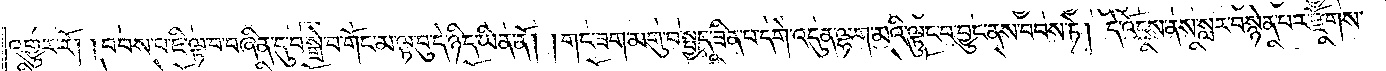འགྱུར་རོ། །བབས་པ་ཇི་ལྟ་བ་བཞིན་དུ་བསྒྲེ་བ་གོང་མ་ལྟ་བུ་དེ་ཉིད་ཡིན་ནོ། །གང་ཟག་མགུ་བ་སྤྱད་ཟིན་པ་དགེ་འདུན་ལྷག་མའི་ལྟུང་བ་བྱུང་ནས་བབས་ཏེ། དེ་འོངས་ནས་སླར་བསྙེན་པར་རྫོགས་
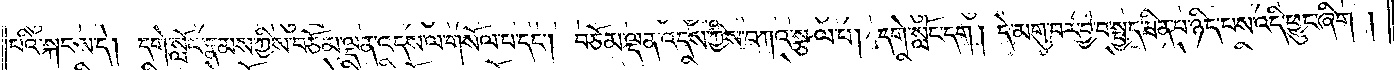པའི་སྐབས་དེ། དགེ་སློང་རྣམས་ཀྱིས་བཅོམ་ལྡན་འདས་ལ་གསོལ་པ་དང༌། བཅོམ་ལྡན་འདས་ཀྱིས་བཀའ་སྩལ་པ། དགེ་སློང་དག། དེ་མགུ་བར་བྱ་བ་སྤྱད་ཟིན་པ་ཉིད་པས་འདི་ཕྱུང་ཞིག །
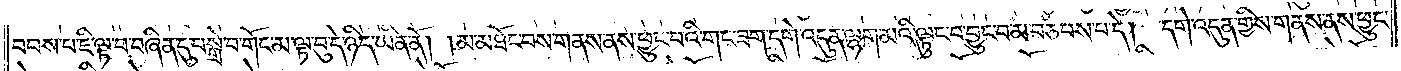བབས་པ་ཇི་ལྟ་བ་བཞིན་དུ་བསྒྲེ་བ་གོང་མ་ལྟ་བུ་དེ་ཉིད་ཡིན་ནོ། །མ་མཐོང་བས་གནས་ནས་ཕྱུང་བའི་གང་ཟག་དགེ་འདུན་ལྷག་མའི་ལྟུང་བ་བྱུང་བ་མ་བཅབས་པ་དེ། དགེ་འདུན་གྱིས་གནས་ནས་ཕྱུང་
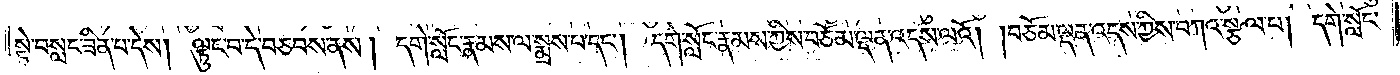སྟེ་བསླང་ཟིན་པ་དེས། ལྟུང་བ་དེ་བཅབས་ནས། དགེ་སློང་རྣམས་ལ་སྨྲས་པ་དང༌། དགེ་སློང་རྣམས་ཀྱིས་བཅོམ་ལྡན་འདས་ལའོ། །བཅོམ་ལྡན་འདས་ཀྱིས་བཀའ་སྩལ་པ། དགེ་སློང་
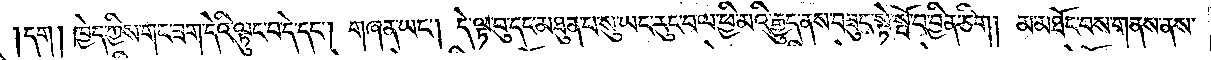དག། ཁྱེད་ཀྱིས་གང་ཟག་དེའི་ལྟུང་བ་དེ་དང༌། གཞན་ཡང༌། དེ་ལྟ་བུ་དང་མཐུན་པ་སུ་ཡང་རུང་བ་ལ་ཕྱི་མའི་རྒྱུད་ནས་བཟུང་སྟེ་སྤོ་བ་བྱིན་ཅིག། མ་མཐོང་བས་གནས་ནས་
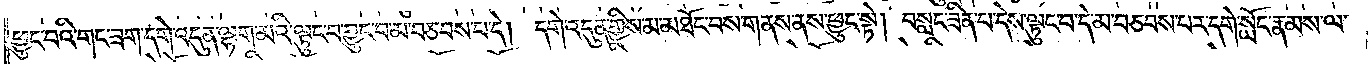ཕྱུང་བའི་གང་ཟག་དགེ་འདུན་ལྷག་མའི་ལྟུང་བ་བྱུང་བ་མ་བཅབས་པ་དེ། དགེ་འདུན་གྱིས་མ་མཐོང་བས་གནས་ནས་ཕྱུང་སྟེ། བསླང་ཟིན་པ་དེས་ལྟུང་བ་དེ་མ་བཅབས་པར་དགེ་སློང་རྣམས་ལ་
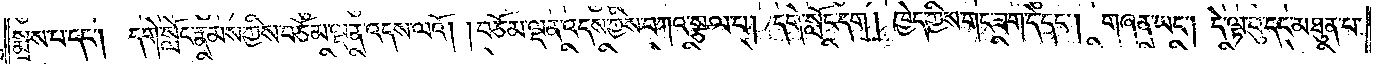སྨྲས་པ་དང༌། དགེ་སློང་རྣམས་ཀྱིས་བཅོམ་ལྡན་འདས་ལའོ། །བཅོམ་ལྡན་འདས་ཀྱིས་བཀའ་སྩལ་པ། དགེ་སློང་དག། ཁྱེད་ཀྱིས་གང་ཟག་དེ་དང༌། གཞན་ཡང༌། དེ་ལྟ་བུ་དང་མཐུན་པ་
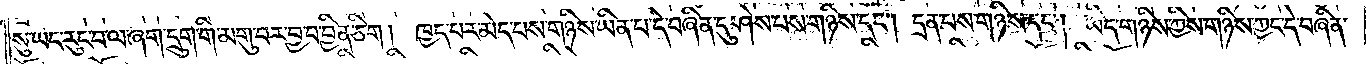སུ་ཡང་རུང་བ་ལ་ཞག་དྲུག་གི་མགུ་བར་བྱ་བ་བྱིན་ཅིག། ཁྱད་པར་མེད་པས་གཉིས་ཡིན་པ་དེ་བཞིན་དུ་ཤེས་པས་གཉིས་དང༌། དྲན་པས་གཉིས་དང༌། ཡིད་གཉིས་ཀྱིས་གཉིས་ཀྱང་དེ་བཞིན་
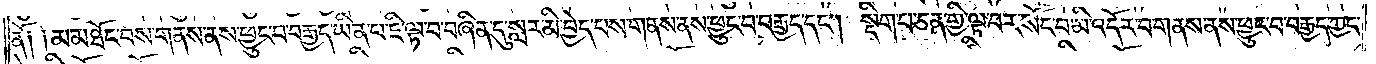ནོ། །མ་མཐོང་བས་གནས་ནས་ཕྱུང་བ་བརྒྱད་ཡིན་པ་ཇི་ལྟ་བ་བཞིན་དུ་སླར་མི་བྱེད་པས་གནས་ནས་ཕྱུང་བ་བརྒྱད་དང༌། སྡིག་པ་ཅན་གྱི་ལྟ་བར་སོང་བ་མི་འདོར་བ་གནས་ནས་ཕྱུང་བ་བརྒྱད་ཀྱང་
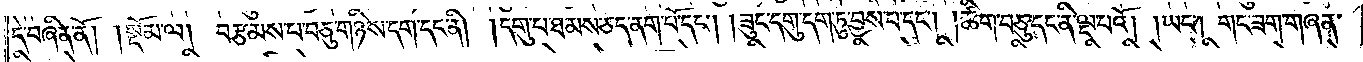དེ་བཞིན་ནོ།    །སྡོམ་ལ། བརྩམས་པ་བཅུ་གཉིས་དག་དང་ནི། །དགུ་པ་ཐམས་ཅད་ནག་པོ་དང༌། །ཟུང་དགུ་དག་ཏུ་བྱས་པ་དང༌། །ཚིག་བཅུ་དང་ནི་ལྔ་པའོ། །ཡང༌། གང་ཟག་གཞན་
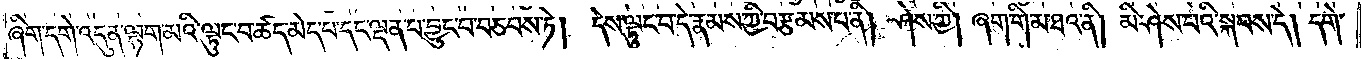ཞིག་དགེ་འདུན་ལྷག་མའི་ལྟུང་བ་ཚད་མེད་པ་དང་ལྡན་པ་བྱུང་བ་བཅབས་ཏེ། དེས་ལྟུང་བ་དེ་རྣམས་ཀྱི་བརྩམས་པ་ནི། ཤེས་ཀྱི། ཞག་གི་མཐའ་ནི། མི་ཤེས་པའི་སྐབས་དེ། དགེ་
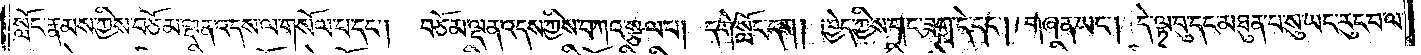སློང་རྣམས་ཀྱིས་བཅོམ་ལྡན་འདས་ལ་གསོལ་པ་དང༌། བཅོམ་ལྡན་འདས་ཀྱིས་བཀའ་སྩལ་པ། དགེ་སློང་དག། ཁྱེད་ཀྱིས་གང་ཟག་དེ་དང༌། གཞན་ཡང༌། དེ་ལྟ་བུ་དང་མཐུན་པ་སུ་ཡང་རུང་བ་ལ་
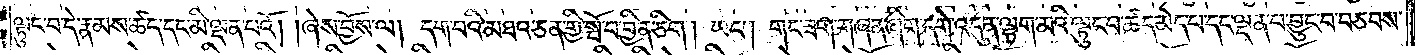ལྟུང་བ་དེ་རྣམས་ཚད་དང་མི་ལྡན་པའོ། །ཞེས་བྱོས་ལ། དག་པའི་མཐའ་ཅན་གྱི་སྤོ་བ་བྱིན་ཅིག། ཡང༌། གང་ཟག་གཞན་ཞིག་དགེ་འདུན་ལྷག་མའི་ལྟུང་བ་ཚད་མེད་པ་དང་ལྡན་པ་བྱུང་བ་བཅབས་
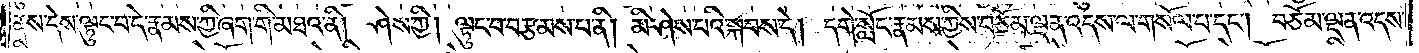ནས་དེས་ལྟུང་བ་དེ་རྣམས་ཀྱི་ཞག་གི་མཐའ་ནི། ཤེས་ཀྱི། ལྟུང་བ་བརྩམས་པ་ནི། མི་ཤེས་པའི་སྐབས་དེ། དགེ་སློང་རྣམས་ཀྱིས་བཅོམ་ལྡན་འདས་ལ་གསོལ་བ་དང༌། བཅོམ་ལྡན་འདས་
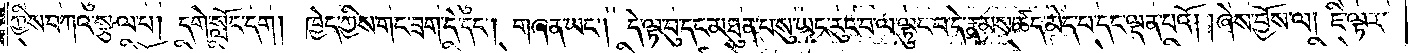ཀྱིས་བཀའ་སྩལ་པ། དགེ་སློང་དག། ཁྱེད་ཀྱིས་གང་ཟག་དེ་དང༌། གཞན་ཡང༌། དེ་ལྟ་བུ་དང་མཐུན་པ་སུ་ཡང་རུང་བ་ལ་ལྟུང་བ་དེ་རྣམས་ཚད་མེད་པ་དང་ལྡན་པའོ། །ཞེས་བྱོས་ལ། ཇི་ལྟར་
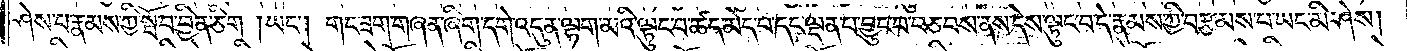ཤེས་པ་རྣམས་ཀྱི་སྤོ་བ་བྱིན་ཅིག། ཡང༌། གང་ཟག་གཞན་ཞིག་དགེ་འདུན་ལྷག་མའི་ལྟུང་བ་ཚད་མེད་པ་དང་ལྡན་པ་བྱུང་བ་བཅབས་ནས་དེ་ལྟུང་བ་དེ་རྣམས་ཀྱི་བརྩམས་པ་ཡང་མི་ཤེས།
